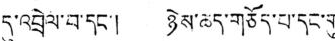དུ་འབྲེལ་བ་དང་། ཉེས་ཆད་གཅོད་པ་དང་གུ་
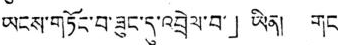ཡངས་གཏོང་བ་ཟུང་དུ་འབྲེལ་བ་」ཡིན། གང་
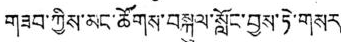གཟབ་ཀྱིས་མང་ཚོགས་བསྐུལ་སློང་བྱས་ཏེ་གསར་
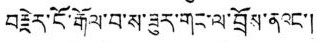བརྗེར་ངོ་རྒོལ་བ་ས་ཟུར་གང་ལ་བྲོས་ནའང་།
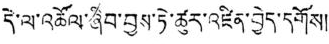དེ་ལ་འཚོལ་ཞིབ་བྱས་ཏེ་ཚུར་འཛིན་བྱེད་དགོས།
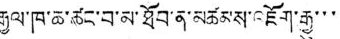རྒྱལ་ཁ་ཆ་ཚང་བ་མ་ཐོབ་ན་མཚམས་འཇོག་རྒྱུ་་་
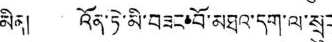མིན། འོན་ཏེ་མི་བཟང་བོ་མཐའ་དག་ལ་སྲུང་
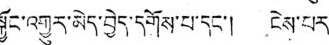སྐྱོང་འགྱུར་མེད་བྱེད་དགོས་པ་དང་། ངེས་པར་
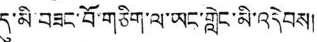དུ་མི་བཟང་བོ་གཅིག་ལ་ཡང་གླེང་མི་འདེབས།
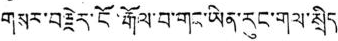གསར་བརྗེར་ངོ་རྒོལ་བ་གང་ཡིན་རུང་གལ་སྲིད་
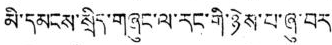མི་དམངས་སྲིད་གཞུང་ལ་རང་གི་ཉེས་པ་ཞུ་བར་་
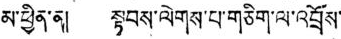མ་ཕྱིན་ན། སྟབས་ལེགས་པ་གཅིག་ལ་འབྲོས་
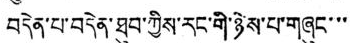བདེན་པ་བདེན་ཐུབ་ཀྱིས་རང་གི་ཉེས་པ་གཞུང་་་
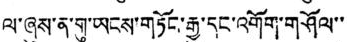ལ་ཞུས་ན་གུ་ཡངས་གཏོང་རྒྱུ་དང་འགོག་གཤོལ་་
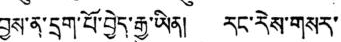བྱས་ན་དྲག་པོ་བྱེད་རྒྱུ་ཡོན། རང་རེས་གསར་
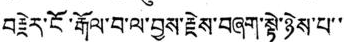བརྗེར་ངོ་རྒོལ་བ་ལ་བྱས་རྗེས་བཞག་སྟེ་ཉེས་པ་་
